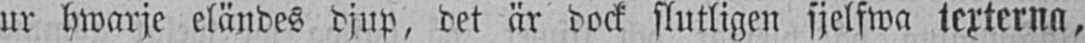ur hwarje eländes djup, det är dock slutligen sjelfwa texterna,
